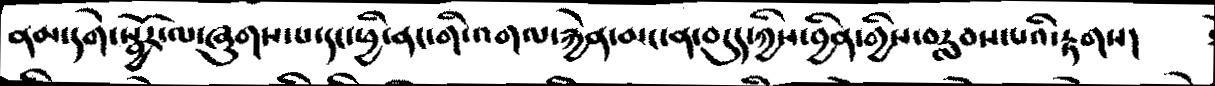ནམ་དགེ་སྦྱོར་ལ་ཞུགས་པ་དང་ཕྱི་ནང་གི་འགལ་རྐྱེན་མང་ན་བདུད་ཀྱིས་བྱིན་གྱིས་བརླབས་པའི་རྟགས།
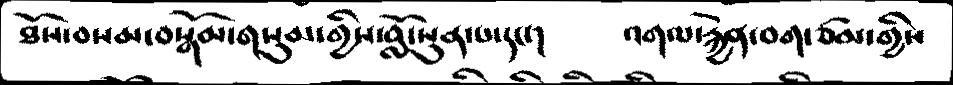ཐོས་བསམ་བསྒོམ་གསུམ་གྱིས་བློ་སུན་པ་དང་།      འགལ་རྐྱེན་བག་ཙམ་གྱིས
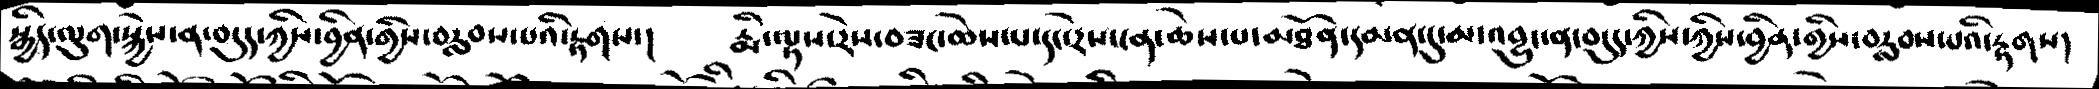སྒྱིད་ལུག་སྐྱེས་ན་བདུད་ཀྱིས་བྱིན་གྱིས་བརླབས་པའི་རྟགས་།   རྨི་ལྟས་རེས་བཟང་ཆེས་པ་དང་རེས་ངན་ཆེས་པ་མཐོན་དམན་དུ་མ་འབྱུང་ན་བདུད་ཀྱིས་ཀྱིས་བྱིན་གྱིས་བརླབས་པའི་རྟགས།
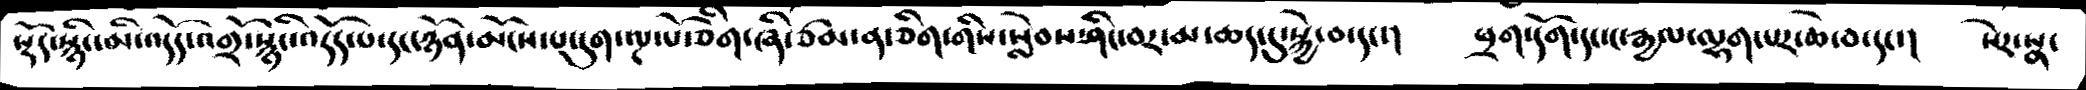སྡོད་སྙིང་མི་འདོད་འགྲོ་སྙིང་འདོད་པ་དང་ཉོན་མོངས་པ་དུག་ལྔ་པོ་ཅིག་ཞི་ཙམ་ན་ཅིག་གིས་སླེབས་ཤིང་བར་མ་ཆད་དུ་སྐྱེ་བ་དང་།   ཕྲག་དོག་དང་ང་རྒྱལ་ལྷག་པར་ཆེ་བ་དང་།   སེར་སྣ་
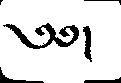༄༅།
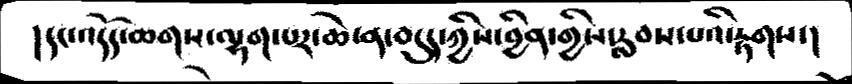།དང་འདོད་ཆགས་ལྷག་པར་ཆེ་ན་བདུད་ཀྱིས་བྱིན་གྱིས་རླབས་པའི་རྟགས་།
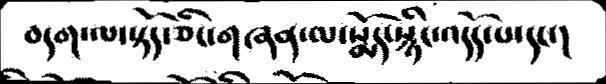བདག་ལ་སྟོད་ཅིང་གཞན་ལ་སྨོད་སྙིང་འདོད་པ་དང་།
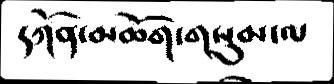དཀོན་མཆོག་གསུམ་ལ
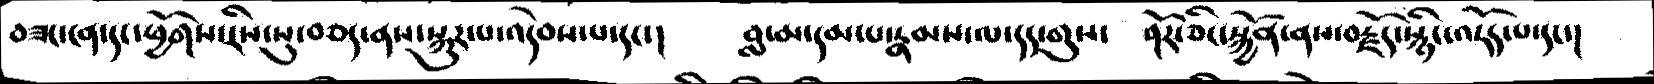བཟང་ངན་དང་ཕྱོགས་རིས་སུ་བཅད་ནས་སྐུར་པ་འདེབས་པ་དང་།    བླ་མ་དམ་པ་རྣམས་ལ་དད་གུས།   ནོར་ཅིང་སྐྱོན་ནས་བརྗོད་སྙིང་འདོད་པ་དང་།
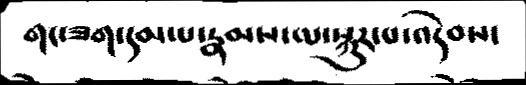གང་ཟག་དམ་པ་རྣམས་ལ་སྐུར་པ་འདེབས་
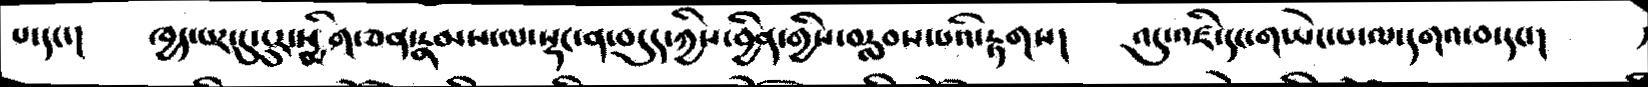པ་དང་།   ཁྱད་པར་དུ་ངུར་སྨིག་ཅན་རྣམས་ལ་སྡང་ན་བདུད་ཀྱིས་བྱིན་གྱིས་བརླབས་པའི་རྟགས།   འདུ་འཛི་དང་གཡེང་པ་ལ་དགའ་བ་དང་།
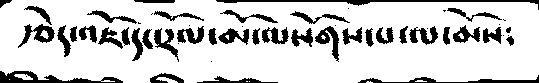རྩེད་འཇོ་དང་རོལ་མོ་ལསོགས་པ་ལ་མོས༴
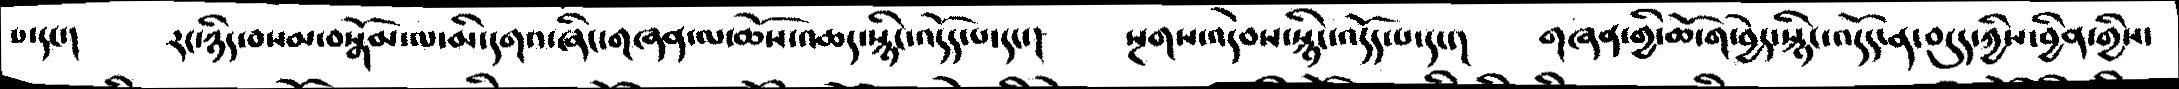པ་དང་།    རང་ཉིད་བསམ་བསྒོམ་ལ་མི་དགའ་ཞིང་གཞན་ལ་ཆོས་འཆད་སྙིང་འདོད་པ་དང་།   སྔགས་འདེབས་སྙིང་འདོད་པ་དང་།   གཞན་གྱི་ཆོ་ག་བྱེད་སྙིང་འདོད་ན་བདུད་ཀྱིས་བྱིན་གྱིས་
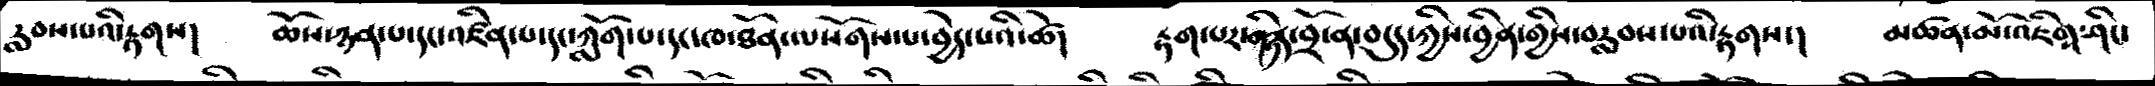རླབས་པའི་རྟགས།   ཆོས་ཉན་པ་དང་འཛིན་པ་དང་ཀློག་པ་དང་ཁ་ཐོན་ལསོགས་པ་བྱེད་པའི་ཚེ།   རྟག་པར་གཉིད་བྲོ་ན་བདུད་ཀྱིས་བྱིན་གྱིས་བརླབས་པའི་རྟགས་།   མཚན་མོ་འཇིགས་ཤིང་
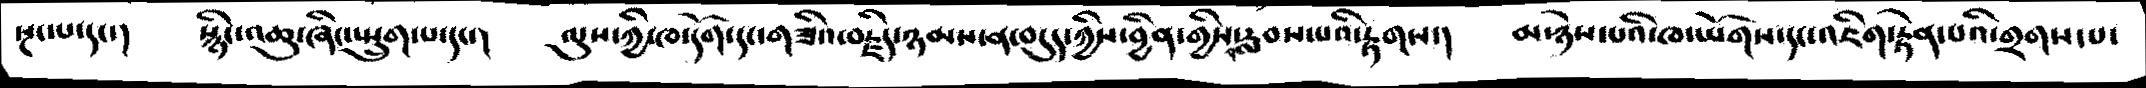སྔང་པ་དང་།    སྙིང་འཆུ་ཞིང་སྤྲུག་པ་དང་།   ལུས་ཀྱི་ཁ་དོག་དང་གཟིའ་བརྗིད་ཉམས་ན་བདུད་ཀྱིས་བྱིན་གྱིས་བརླབས་པའི་རྟགས་།   མ་ཉེས་པའི་ཁ་ཡོགས་དང་འཇིག་རྟེན་པའི་གྲགས་པ་
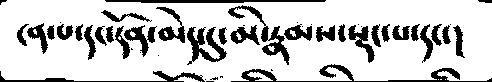ངན་པ་དང་དོན་མེད་དུ་མི་རྣམས་སྡང་པ་དང་།
